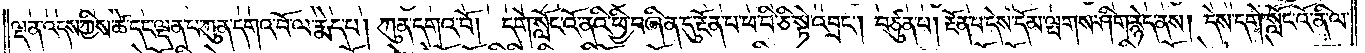ལྡན་འདས་ཀྱིས་ཚེ་དང་ལྡན་པ་ཀུན་དགའ་བོ་ལ་རྨེད་པ། ཀུན་དགའ་བོ། །དགེ་སློང་འོ་ནའི་ཕྱི་བཞིན་དུ་རྔོན་པ་ཕ་བི་ཅི་སྟེ་འབྲང༌། བཙུན་པ། རྔོན་པ་དེས་དོམ་ལྤགས་ཤིག་རྙེད་ནས། དེས་དགེ་སློང་འོ་ནི་ལ་
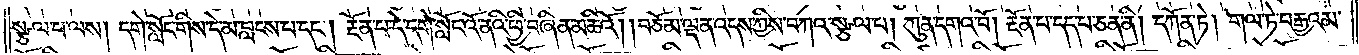སྩལ་པ་ལས། དགེ་སློང་གིས་དེ་མ་བླངས་པ་དང༌། རྔོན་པ་དེ་དགེ་སློང་འོ་ནའི་ཕྱི་བཞིན་མཆིའོ། །བཅོམ་ལྡན་འདས་ཀྱིས་བཀའ་སྩལ་པ། ཀུན་དགའ་བོ། རྔོན་པ་དད་པ་ཅན་ནི། དཀོན་ཏེ། གལ་ཏེ་བརྒྱའམ་
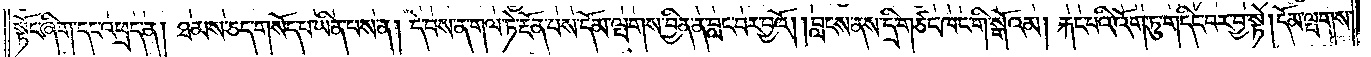སྟོང་ཞིག་དང་འཕྲད་ན། ཐམས་ཅད་གསོད་པ་ཡིན་པས་ན། དེ་བས་ན་གལ་ཏེ་རྔོན་པས་དོམ་ལྤགས་བྱིན་ན་བླང་བར་བྱའོ། །བླང་ནས་དྲི་གཙང་ཁང་གི་སྒོའམ། རྐང་པའི་འོག་ཏུ་གདིང་བར་བྱ་སྟེ། དོམ་ལྤགས་
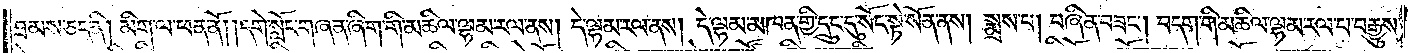ཐམས་ཅད་ནི། མིག་ལ་ཕན་ནོ། །དགེ་སློང་གཞན་ཞིག་གི་མཆིལ་ལྷམ་རལ་ནས། དེ་ལྷམ་རལ་ནས། དེ་ལྷམ་མཁན་གྱི་དྲུང་དུ་སོང་སྟེ་སོན་ནས། སྨྲས་པ། བཞིན་བཟང༌། བདག་གི་མཆིལ་ལྷམ་རལ་པ་བརྒྱུས་
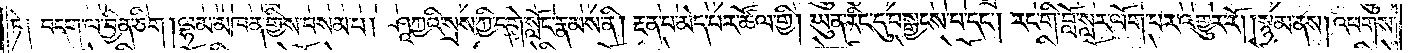ཏེ༑ བདག་ལ་བྱིན་ཅིག །ལྷམ་མཁན་གྱིས་བསམ་པ། ཤཱཀྱའི་སྲས་ཀྱི་དགེ་སློང་རྣམས་ནི། རྔན་པ་མེད་པར་ཚོལ་གྱི། ཡུན་རིང་དུ་བསྒྱངས་པ་དང༌། རང་གི་བློ་སླར་ལོག་པར་འགྱུར་རོ། །སྙམ་ནས། འཕགས་
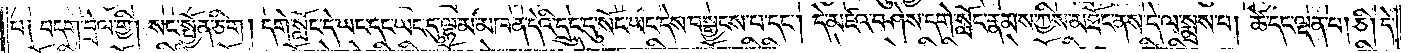པ༑  བདག། བྲེལ་གྱི། སང་སྤྱོན་ཅིག །དགེ་སློང་དེ་ཡང་དང་ཡང་དུ་ལྷམ་མཁན་དེའི་དྲུང་དུ་སོང་ཡང་དེས་བསྒྱངས་པ་དང༌། དེ་མཛའ་བཤེས་དགེ་སློང་རྣམས་ཀྱིས་མཐོང་ནས་དེ་ལ་སྨྲས་པ། ཚེ་དང་ལྡན་པ། ཅི། དེ་
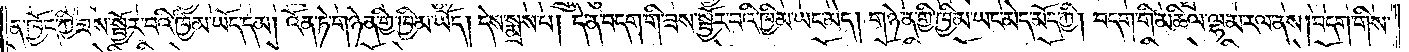ན་ཁྱོད་ཀྱི་ཟས་སྦྱོར་བའི་ཁྱིམ་ཡོད་དམ། འོན་ཏེ་གཉེན་གྱི་ཁྱིམ་ཡོད། དེས་སྨྲས་པ། དེ་ན་བདག་གི་ཟས་སྦྱོར་བའི་ཁྱིམ་ཡང་མེད། གཉེན་གྱི་ཁྱིམ་ཡང་མེད་མོད་ཀྱི། བདག་གི་མཆིལ་ལྷམ་རལ་ནས། བདག་གིས་
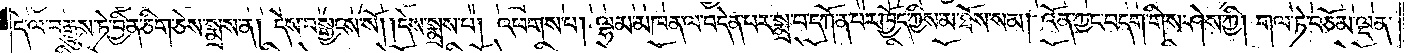དེ་ལ་བརྒྱུས་ཏེ་བྱིན་ཅིག་ཅེས་སྨྲས་ན། དེས་བསྒྱངས་སོ། །དེས་སྨྲས་པ། འཕགས་པ། ལྷམ་མཁན་ལ་བདེན་པར་སྨྲ་བ་དཀོན་པར་ཁྱོད་ཀྱིས་མ་ཐོས་སམ། འོན་ཀྱང་བདག་གིས་ཤེས་ཀྱི། གལ་ཏེ་བཅོམ་ལྡན་
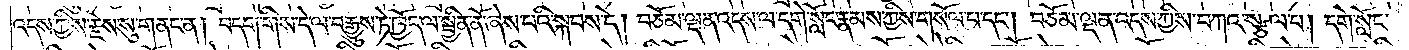འདས་ཀྱིས་རྗེས་སུ་གནང་ན། བདག་གིས་དེ་ལ་བརྒྱུས་ཏེ་ཁྱོད་ལ་སྦྱིན་ནོ་ཞེས་པའི་སྐབས་དེ། བཅོམ་ལྡན་འདས་ལ་དགེ་སློང་རྣམས་ཀྱིས་གསོལ་པ་དང༌། བཅོམ་ལྡན་འདས་ཀྱིས་བཀའ་སྩལ་པ། དགེ་སློང་
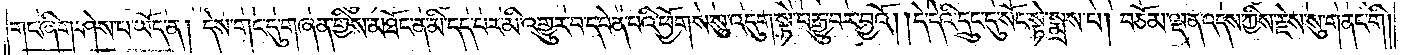གང་ཞིག་ཤེས་པ་ཡོད་ན། དེས་གང་དུ་གཞན་གྱིས་མཐོང་ན་མི་དད་པར་མི་འགྱུར་བ་དབེན་པའི་ཕྱོགས་སུ་འདུག་སྟེ་བརྒྱུ་བར་བྱའོ། །དེ་དེའི་དྲུང་དུ་སོང་སྟེ་སྨྲས་པ། བཅོམ་ལྡན་འདས་ཀྱིས་རྗེས་སུ་གནང་གི།
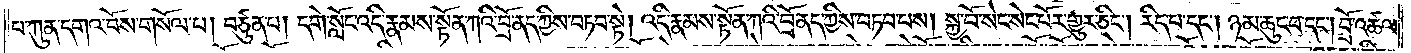པ་ཀུན་དགའ་བོས་གསོལ་པ། བཙུན་པ། དགེ་སློང་འདི་རྣམས་སྟོན་ཀའི་བྲོ་ནད་ཀྱིས་བཏབ་སྟེ། འདི་རྣམས་སྟོན་ཀའི་བྲོ་ནད་ཀྱིས་བཏབ་པས། སྐྱ་བོ་སེང་སེང་པོར་གྱུར་ཅིང༌། རིད་པ་དང༌། ཉམ་ཆུང་བ་དང༌། བྲོ་འཚལ་
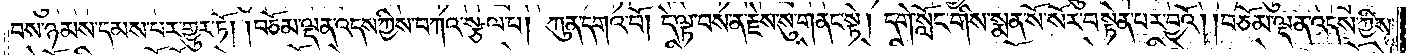བས་ཉམས་དམས་པར་གྱུར་ཏོ། །བཅོམ་ལྡན་འདས་ཀྱིས་བཀའ་སྩལ་པ། ཀུན་དགའ་བོ། དེ་ལྟ་བས་ན་རྗེས་སུ་གནང་སྟེ། དགེ་སློང་གིས་སྨན་སོ་སོར་བསྟེན་པར་བྱའོ། །བཅོམ་ལྡན་འདས་ཀྱིས་
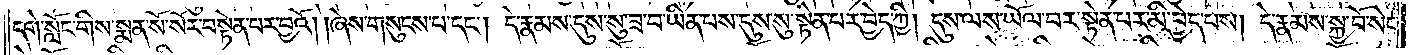དགེ་སློང་གིས་སྨན་སོ་སོར་བསྟེན་པར་བྱའོ། །ཞེས་གསུངས་པ་དང༌། དེ་རྣམས་དུས་སུ་ཟ་བ་ཡིན་པས་དུས་སུ་སྟེན་པར་བྱེད་ཀྱི། དུས་ལས་ཡོལ་བར་སྟེན་པར་མི་བྱེད་པས། དེ་རྣམས་སྐྱ་བོ་སེང་
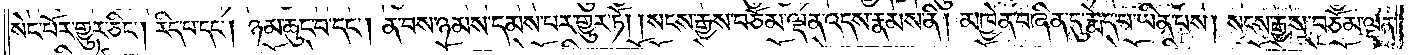སེང་པོར་གྱུར་ཅིང༌། རིད་པ་དང༌། ཉམ་ཆུང་བ་དང༌། ན་བས་ཉམས་དམས་པར་གྱུར་ཏོ། །སངས་རྒྱས་བཅོམ་ལྡན་འདས་རྣམས་ནི། མཁྱེན་བཞིན་དུ་རྨེད་པ་ཡིན་པས། སངས་རྒྱས་བཅོམ་ལྡན་
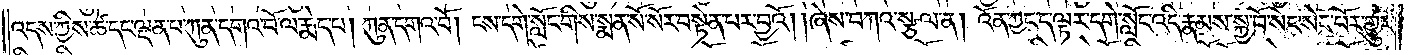འདས་ཀྱིས་ཚེ་དང་ལྡན་པ་ཀུན་དགའ་བོ་ལ་རྨེད་པ། ཀུན་དགའ་བོ། ངས་དགེ་སློང་གིས་སྨན་སོ་སོར་བསྟེན་པར་བྱའོ། །ཞེས་བཀའ་སྩལ་ན། འོན་ཀྱང་ད་ལྟར་དགེ་སློང་འདི་རྣམས་སྐྱ་བོ་སེང་སེང་པོར་གྱུར་
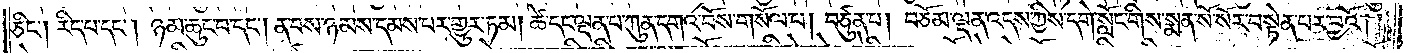ཅིང༌། རིད་པ་དང༌། ཉམ་ཆུང་བ་དང༌། ན་བས་ཉམས་དམས་པར་གྱུར་ཏམ། ཚེ་དང་ལྡན་པ་ཀུན་དགའ་བོས་གསོལ་པ། བཙུན་པ། བཅོམ་ལྡན་འདས་ཀྱིས་དགེ་སློང་གིས་སྨན་སོ་སོར་བསྟེན་པར་བྱའོ། །
